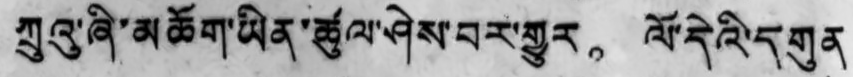ཀྲུའུ་ཞི་མཆོག་ཡིན་ཚུལ་ཤེས་བར་གྱུར。 ལོ་དེའི་དགུན
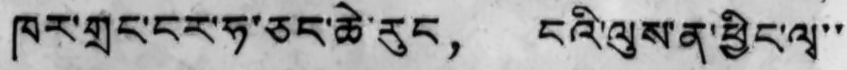ཁར་གྲང་ངར་ཧ་ཅང་ཆེ་རུང， ངའི་ལུས་ན་ཕྱིང་ལྭ་་
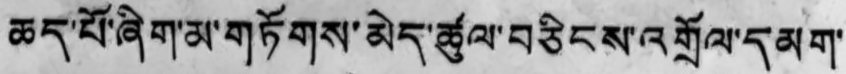ཆད་པོ་ཞིག་མ་གཏོགས་མེད་ཚུལ་བཅིངས་འགྲོལ་དམག་
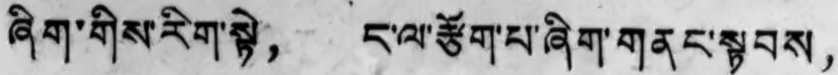ཞིག་གིས་རིག་སྟེ， ང་ལ་རྩོག་པ་ཞིག་གནང་སྟབས，
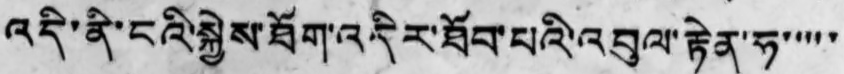འདི་ནི་ངའི་སྐྱེས་ཐོག་འདིར་ཐོབ་པའི་འབུལ་རྟེན་ཧ་་་་་
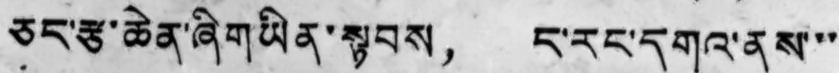ཅད་རྩ་ཆེན་ཞིག ཡིན་སྟབས， ང་རང་དགའ་ནས་་་
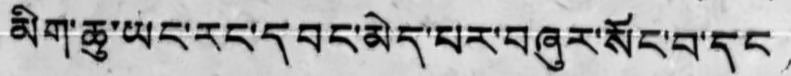མིག་ཆུ་ཡང་རང་དབང་མེད་པར་བཞུར་སོང་བ་དང，
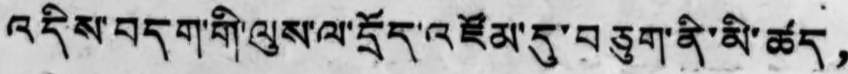འདིས་བདག་གི་ལུས་ལ་དྲོད་འཛོམ་དུ་བཅུག་ནི་མི་ཚད，
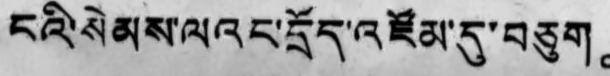ངའི་སེམས་ལའང་དྲོད་འཛོམ་དུ་བཅུག。
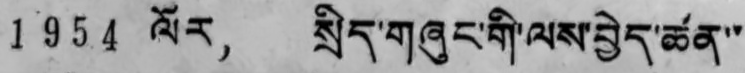1954 ལོར， སྲིད་གཞུང་གི་ལས་བྱེད་ཚན་་
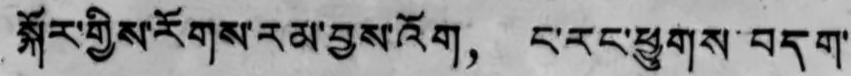སྐོར་གྱིས་རོགས་རམ་བྱས་འོག， ང་རང་ཕྱུགས་བདག་
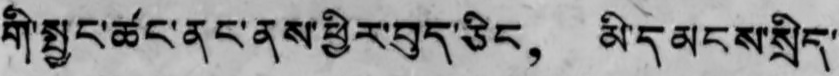གི་སྤྱང་ཚང་ནང་ནས་ཕྱིར་བུད་ཅིང， མི་དམངས་སྲིད་
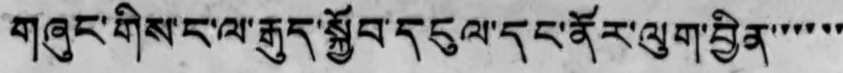གཞུང་གིས་ང་ལ་རྒུད་སྐྱོབ་དངུལ་དང་ནོར་ལུག་བྱིན་་་་་་
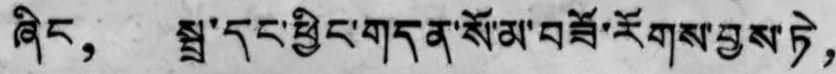ཞིང， སྦྲ་དང་ཕྱིང་གདན་སོ་མ་བཟོ་རོགས་བྱས་ཏེ，
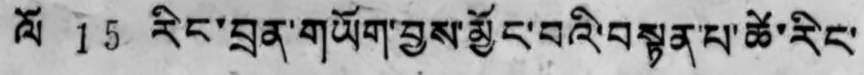ལོ 15 རིང་བྲན་གཡོག་བྱས་མྱོང་བའི་བསྟན་པ་ཚེ་རིང་
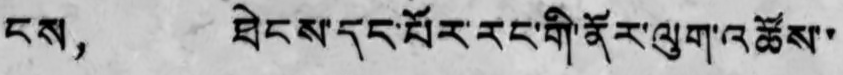ངས， ཐེངས་དང་པོར་རང་གི་ནོར་ལུག་འཚོས་་
